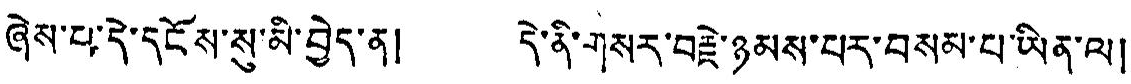ཞེས་པ་དེ་དངོས་སུ་མི་བྱེད་ན། དེ་ནི་གསར་བརྗེ་ཉམས་པར་བསམ་པ་ཡིན་ལ།
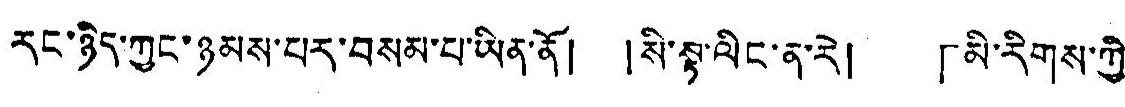རང་ཉིད་ཀྱང་ཉམས་པར་བསམ་པ་ཡིན་ནོ། །སི་སྟ་ལིང་ན་རེ། 「མི་རིགས་ཀྱི་
